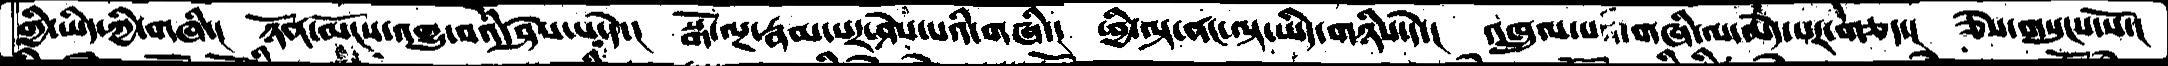གྱི་ཡིད་ཀྱི་གཞི་།  ཉོན་མོངས་འགྱུ་བའི་ཤེས་པ་དེ་།  སྒོ་ལྔ་རྣམ་པར་ཤེས་པའི་གཞི་།  ཕྱི་ལྟ་ནང་ལྟ་ཡིད་གཉིས་དེ་།  འཁྲུལ་པའི་གཞི་ལ་མེད་པར་གཅད་།  ཅེས་གསུངས་སོ་།
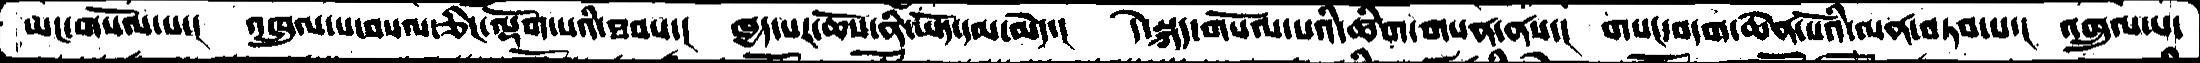ཡང་གསོལ་པ་།  འཁྲུལ་པ་བསལ་ཅིང་ལྡོག་པའི་ཐབས་།  ཁྱད་པར་ཆོས་ནི་ཡོད་དམ་མེད་།  དེ་སྐད་གསོལ་པའི་ཚིག་གསན་ནས་།  གསང་བདག་ཆེན་པོའི་ལན་བཏབ་པ་།  འཁྲུལ་པ་
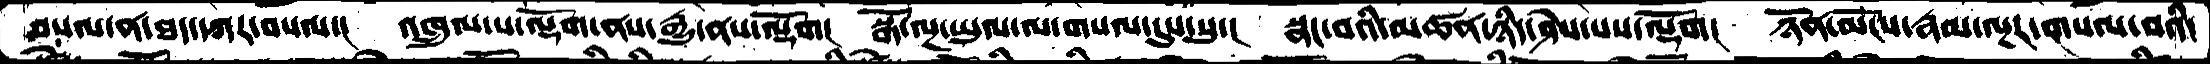བསལ་ན་ཐད་དཀར་བསལ་།  འཁྲུལ་པ་ལྡོག་ནས་རྒྱུ་ནས་ལྡོག།  སྒོ་ལྔ་ཡུལ་ལ་གསལ་དུས་སུ་།  སྣང་བའི་མཚན་ཉིད་ཤེས་པས་ལྡོག།  ཉོན་མོངས་རྣམ་ལྔར་གསལ་བའི་
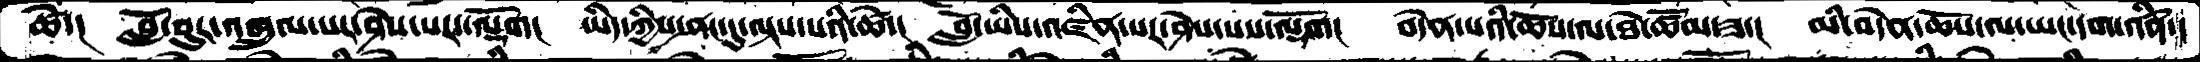ཚེ་།  བློ་བུར་འཁྲུལ་པར་ཤེས་པར་ལྡོག་།  ཡིད་ཀྱིས་ནང་དུ་ལྟས་པའི་ཚེ་།  བློ་ཡིས་འཛིན་པར་ཤེས་པས་ལྡོག།  བདེན་པའི་ཆོས་ལ་ཐེ་ཚོམ་ཟ་།  མི་བདེན་ཆོས་ལ་ཡང་དག་འཛིན་།
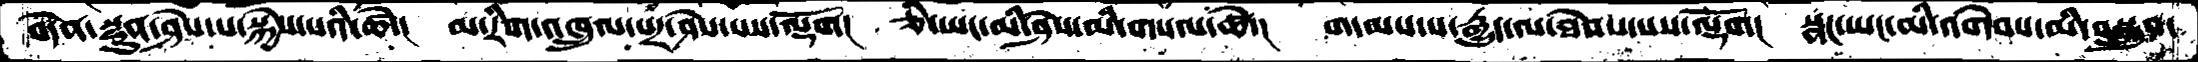བདེན་སྫུན་ཤེས་པ་སྐྱེས་པའི་ཚེ་།  མ་རིག་འཁྲུལ་པར་ཤེས་པས་ལྡོག།  ཅི་ཡང་མི་ཤེས་མི་གསལ་ཚེ་།  གདམས་པ་རྒྱུད་ལ་ཐེབས་པས་ལྡོག།  སྣང་ཡང་མི་འགེབས་མི་བསྒྲུབ་
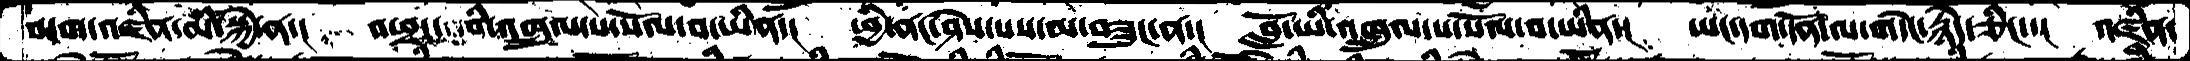བདག་འཛིན་མི་་སྐྱེ་ན་།  འཕྲང་བའི་འཁྲུལ་པ་སོལ་བ་ཡིན་།  ཕྱི་ནང་ཤེས་པས་མ་བཟུང་ན་།  བློ་ཡི་འཁྲུལ་པ་སོལ་བ་ཡིན་།  ཡང་དག་དོན་ལ་གདེང་རྙེད་ཅིང་་།  འཛིན་
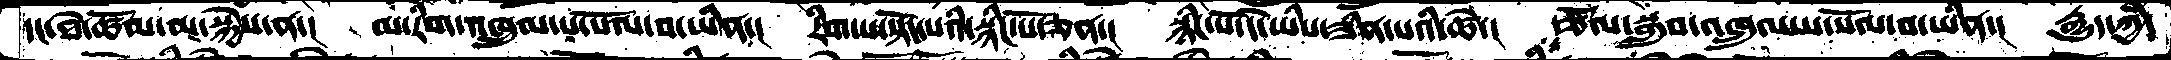དང་ཐེ་ཚོམ་མ་སྐྱེས་ན་།  མ་རིག་འཁྲུལ་པ་སོལ་བ་ཡིན་།  རིག་པ་སྟོང་པའི་སྙིང་པོ་ཅན་།  སྙིང་པོ་དེ་ཡིས་ཟིན་པའི་ཚེ་།  རྩོལ་སྒྲུབ་འཁྲུལ་པ་སོལ་བ་ཡིན་།  རྒྱུད་ཀྱི་
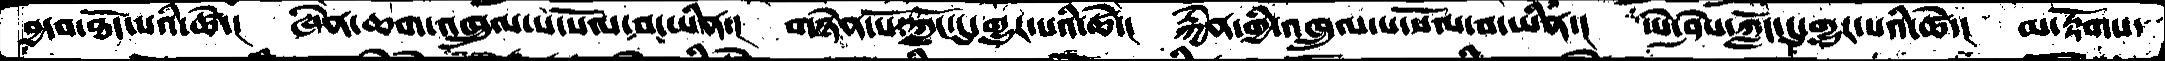བྱ་བ་ཐོད་པའི་ཚེ་།  ཞེན་ཆག་འཁྲུལ་པ་སོལ་བ་ཡིན་།  གཉེན་པོ་ཀློང་དུ་གྱུར་པའི་ཚེ་།  རྐྱེན་གྱི་འཁྲུལ་པ་སོལ་བ་ཡིན་།  ཡེ་ཤེས་ཀློང་དུ་གྱུར་པའི་ཚེ་།  མ་རྟོགས་
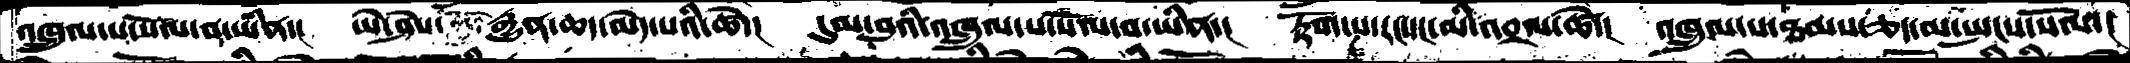འཁྲུལ་པ་སོལ་ན་ཡིན་།  ཡེ་ཤེས་རྒྱུན་ཆད་མེད་པའི་ཚེ་།  དུམ་བུའི་འཁྲུལ་པ་སེལ་བ་ཡིན་།  རྟོག་པ་རང་དང་མི་འབྲལ་ཚེ་།  འཁྲུལ་པ་ཐམས་ཅད་མ་སྤངས་སོལ་།
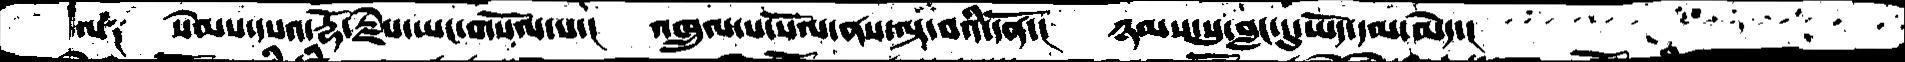ལ༑  སེམས་དཔའ་རྡོ་རྗེས་ཡང་གསོལ་པ་།  འཁྲུལ་པ་སོལ་ནས་ལྟ་བའི་དོན་།  ཉམས་སུ་བླང་དུ་ཡོད་དམ་མེད་།
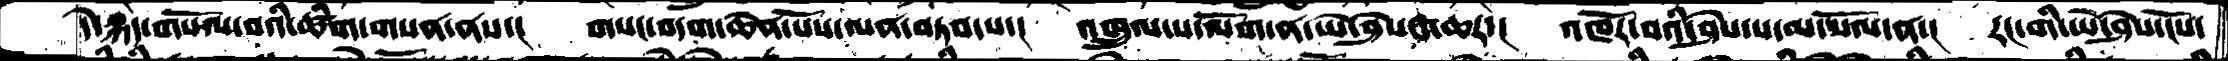དེ་སྐད་གསོལ་བའི་ཚིག་གསན་ནས་།  གསང་བདག་ཆེན་པོས་ལན་བཏབ་པ་།  འཁྲུལ་པ་ལོག་ན་ཡེ་ཤེས་ཆར་།  འཁོར་བའི་ཤེས་པ་མ་སོལ་ན་།  རང་གི་ཡེ་ཤེས་ངོས་
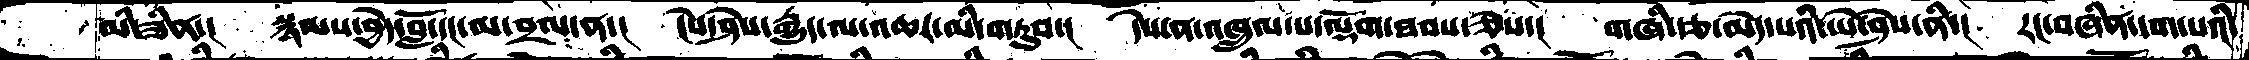མི་ཟིན་།  སྙམས་བྱེད་བློ་དང་མ་བྲལ་ན་།  ངེས་ཤེས་རྒྱུད་ལ་འཆར་མི་གཏུབ་།  དེས་ན་འཁྲུལ་པ་ལྡོག་ཐབས་ཅེས་།  གཞི་རྩ་མེད་པའི་ཡེ་ཤེས་ནི་།  རང་བཞིན་དག་པའི་
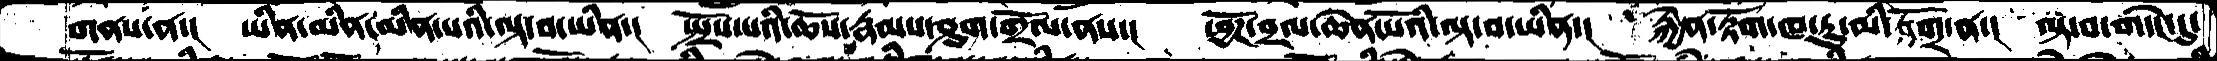གནས་ན་།  ཡིན་མིན་མིན་པའི་ལྟ་བ་ཡིན་།  སྤྲོས་པའི་ཆོས་རྣམས་ཤུག་གྲོལ་ནས་།  ཕྱོཌ་བྲལ་ཆེན་པོའི་ལྟ་བ་ཡིན་།  རྐྱེན་རྟོག་ཁ་རུ་མི་འགྲོ་ན་།  ལྟ་བ་གདེང་དུ་
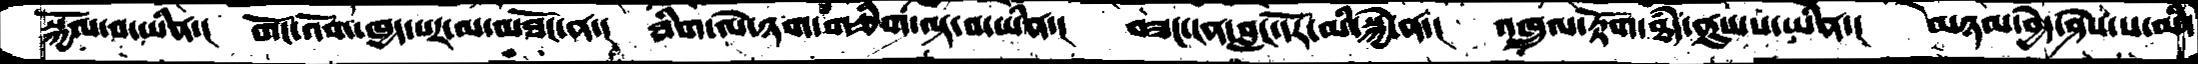སྐྱོལ་བ་ཡིན་།  གོང་འོག་ཁྱད་པར་མ་མཐོང་ན་།  ཐིག་ལེ་ཉག་གཅིག་ལྟ་བ་ཡིན་།  བཟང་ངན་བླང་དོར་མི་སྐྱེ་ན་།  འཁྲུལ་རྟོག་ཐདཾ་ནུས་པ་ཡིན་།  མཉམ་བྱེད་ཤེས་པ་མི་
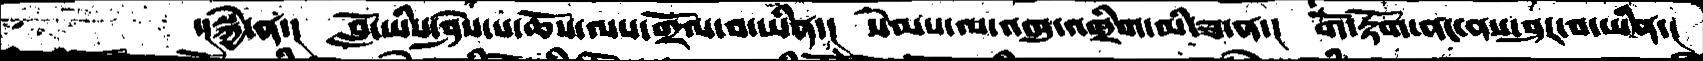་།སྐྱེ་ན་།  བློ་ཡིས་ཤེས་པ་ཆོས་ལས་གྲོལ་བ་ཡིན་།  སེམས་ལ་འཁུ་འཁྲིག་མི་ཟ་ན་།  གོ་རྟོག་ནང་ནས་ཤར་བ་ཡིན་།
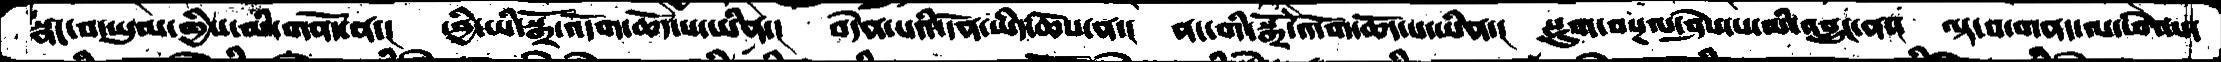སྣང་བ་ཡུལ་གྱིས་མི་གནོད་ན་།  ཕྱི་ཡི་སྒྲོ་འདོག་ཆོད་པ་ཡིན་།  བདེན་པའི་དོན་ཡིད་ཆེས་ན་།  ནང་གི་སྒྲོ་འདོག་ཆོད་པ་ཡིན་།  སྡུག་བསྔལ་ཤེས་པ་མི་འབྱུང་ན་།  ལྟ་བ་གནད་ལ་ཕེབས་
